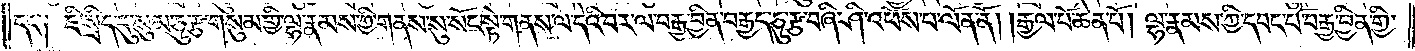དང༌། ཇི་སྲིད་དུ་སུམ་ཅུ་རྩ་གསུམ་གྱི་ལྷ་རྣམས་ཀྱི་གནས་སུ་སོང་སྟེ་གནས་ལ་དེའི་བར་ལ་བརྒྱ་བྱིན་བརྒྱད་ཅུ་རྩ་བཞི་ཤི་འཕོས་པ་ལོན་ནོ། །རྒྱལ་པོ་ཆེན་པོ། ལྷ་རྣམས་ཀྱི་དབང་པོ་བརྒྱ་བྱིན་གྱི་
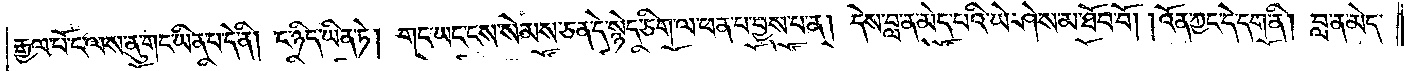རྒྱལ་པོ་ང་ལས་ནུ་གང་ཡིན་པ་དེ་ནི། ང་ཉིད་ཡིན་ཏེ། གང་ཡང་ངས་སེམས་ཅན་དེ་སྙེད་ཅིག་ལ་ཕན་པ་བྱས་པ་ན། དེས་བླ་ན་མེད་པའི་ཡེ་ཤེས་མ་ཐོབ་བོ། །འོན་ཀྱང་དེ་དག་ནི། བླ་ན་མེད་
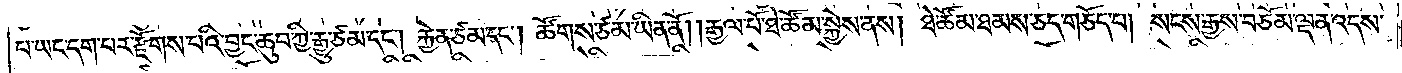པ་ཡང་དག་པར་རྫོགས་པའི་བྱང་ཆུབ་ཀྱི་རྒྱུ་ཙམ་དང༌། རྐྱེན་ཙམ་དང༌། ཚོགས་ཙམ་ཡིན་ནོ། །རྒྱལ་པོ་ཐེ་ཚོམ་སྐྱེས་ནས། ཐེ་ཚོམ་ཐམས་ཅད་གཅོད་པ། སངས་རྒྱས་བཅོམ་ལྡན་འདས་
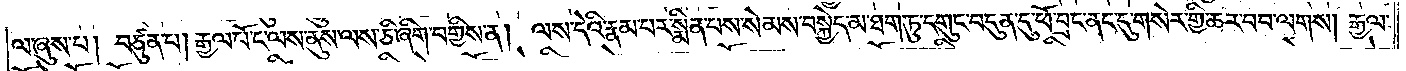ལ་ཞུས་པ། བཙུན་པ། རྒྱལ་པོ་ང་ལས་ནུས་ལས་ཅི་ཞིག་བགྱིས་ན། ལས་དེའི་རྣམ་པར་སྨིན་པས་སེམས་བསྐྱེད་མ་ཐག་ཏུ་དགུང་བདུན་དུ་ཕོ་བྲང་ནང་དུ་གསེར་གྱི་ཆར་བབ་ལགས། རྒྱལ་
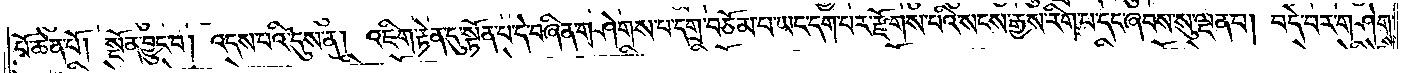པོ་ཆེན་པོ། སྔོན་བྱུང་བ། འདས་པའི་དུས་ན། འཇིག་རྟེན་དུ་སྟོན་པ་དེ་བཞིན་གཤེགས་པ་དགྲ་བཅོམ་པ་ཡང་དག་པར་རྫོགས་པའི་སངས་རྒྱས་རིག་པ་དང་ཞབས་སུ་ལྡན་པ། བདེ་བར་གཤེགས་
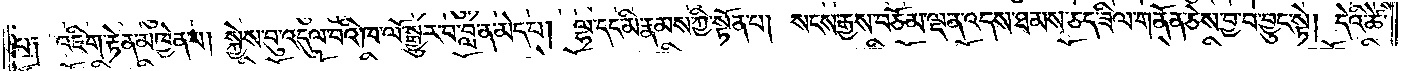པ། འཇིག་རྟེན་མཁྱེན་པ། སྐྱེས་བུ་འདུལ་བའི་ཁ་ལོ་སྒྱུར་བ་བླ་ན་མེད་པ། ལྷ་དང་མི་རྣམས་ཀྱི་སྟོན་པ། སངས་རྒྱས་བཅོམ་ལྡན་འདས་ཐམས་ཅད་ཟིལ་གནོན་ཅེས་བྱ་བ་བྱུང་སྟེ། དེའི་ཚེ་
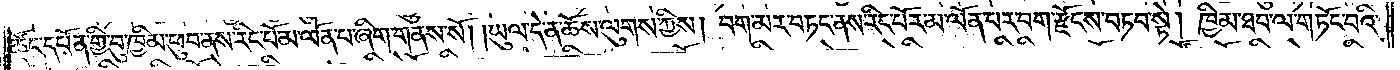ཚོང་དཔོན་གྱི་བུ་ཁྱིམ་ཕུབ་ནས་རིང་པོ་མ་ལོན་པ་ཞིག་གནས་སོ། །ཡུལ་དེ་ན་ཆོས་ལུགས་ཀྱིས། བག་མར་བཏང་ནས་རིང་པོར་མ་ལོན་པར་བག་རྫོངས་བཏབ་སྟེ། ཁྱིམ་ཐབ་ལ་གཏོང་བའི་
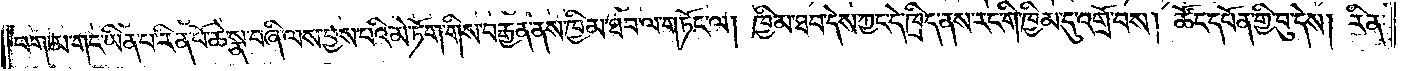བག་མ་གང་ཡིན་པ་རིན་པོ་ཆེ་སྣ་བཞི་ལས་བྱས་པའི་མེ་ཏོག་གིས་བརྒྱན་ནས་ཁྱིམ་ཐབ་ལ་གཏོང་ལ། ཁྱིམ་ཐབ་དེས་ཀྱང་དེ་ཁྲིད་ནས་རང་གི་ཁྱིམ་དུ་འགྲོ་བས། ཚོང་དཔོན་གྱི་བུ་དེས། རིན་
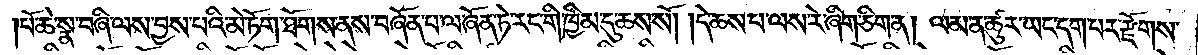པོ་ཆེ་སྣ་བཞི་ལས་བྱས་པའི་མེ་ཏོག་ཐོགས་ནས་བཞོན་པ་ལ་ཞོན་ཏེ་རང་གི་ཁྱིམ་དུ་ཆས་སོ། །དེ་ཆས་པ་ལས་རེ་ཞིག་ཅིག་ན། ལམ་ན་ཚུར་ཡང་དག་པར་རྫོགས་
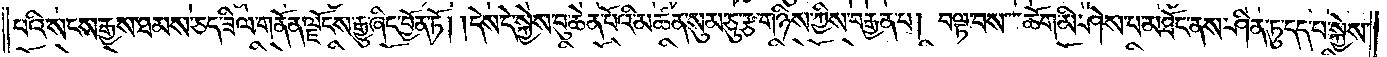པའི་སངས་རྒྱས་ཐམས་ཅད་ཟིལ་གནོན་ལྗོངས་རྒྱུ་ཞིང་བྱོན་ཏོ། །དེས་དེ་སྐྱེས་བུ་ཆེན་པོའི་མཚན་སུམ་ཅུ་རྩ་གཉིས་ཀྱིས་བརྒྱན་པ། བལྟ་བས་ཆོག་མི་ཤེས་པ་མཐོང་ནས་ཤིན་ཏུ་དད་པ་སྐྱེས་
